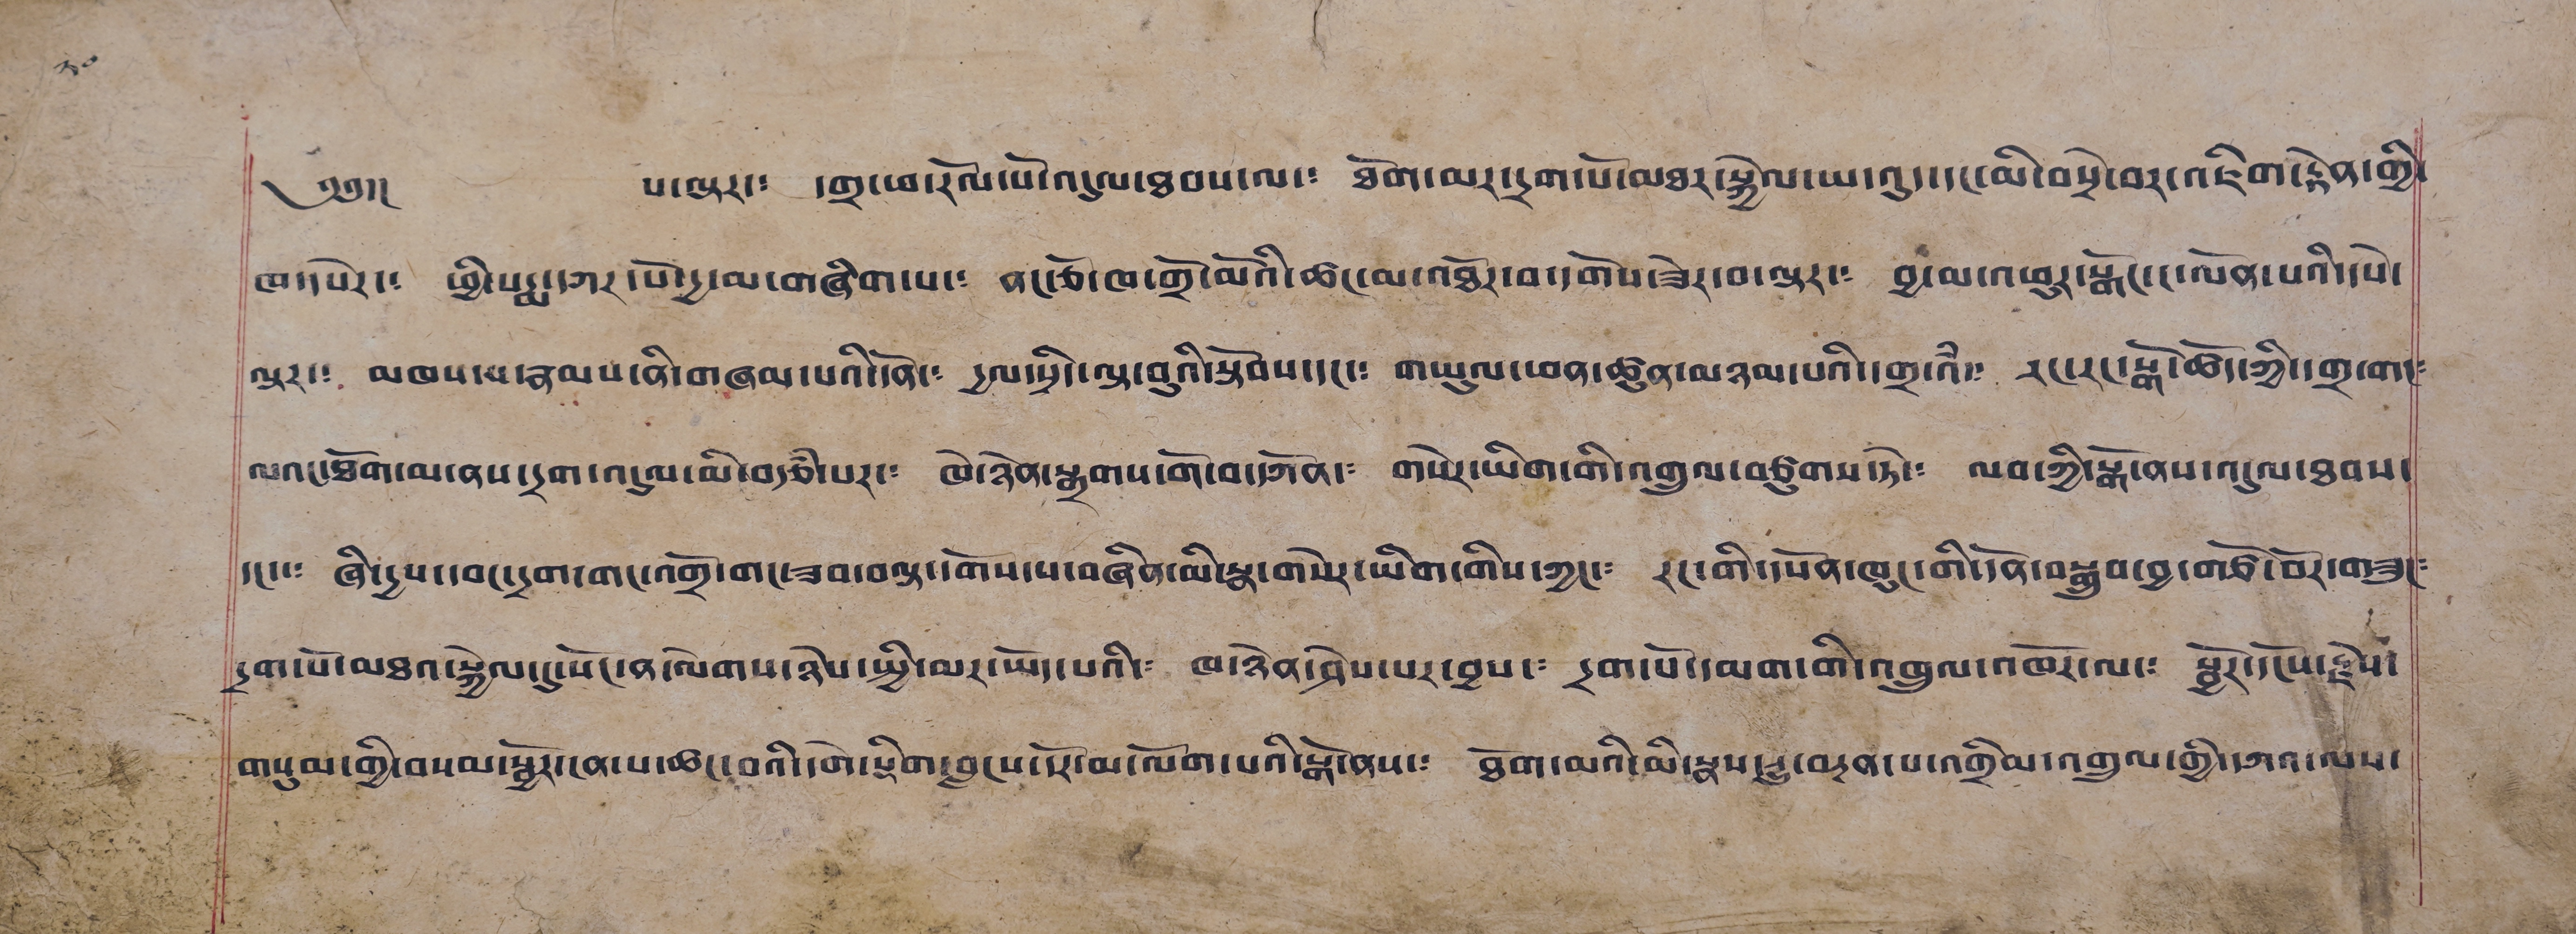༢༠
༄༅།། པ་ལྟར་༴ དགྲ་ཕ་རོལ་པོ་འདུལ་ཐབས་ལ་༴ ཐོག་མར་དྲག་པོ་མཐར་སྐྱེལ་ཡ་འུད་དང་མི་བསྲེ་བར་འཇིག་རྟེན་གྱི་
ཁ་དཔེར་༴ ཕྱི་པདྨ་དཀར་པོ་དྱ་མ་གཞིག་པ་༴ ནང་ཅོ་ཁ་གྲོ་མོའི་ཚང་མ་འཐོར་བ་དགོས་ཟེར་བ་ལྟར་༴ བྱ་མ་འཕུར་སྒོང་ང་ལོན་པའི་དཔེ་
ལྟར་༴ མཁས་པ་རྣམས་ནི་གཞལ་པའི་དོན་༴ དྱལ་སྲིད་ལྟ་བུའི་སྟོབས་དང་༴ གཡུལ་ཕན་ཚུན་མཉམ་པའི་དགྲ་འཾ་༴ རང་རང་སྒོ་ཚོད་ཀྱི་དགྲ་གང༴
ལའང་ཐོག་མ་ནས་དྲག་འདུལ་མི་བརྩི་པར་༴ ཁེ་ཉེན་སྒྲགས་གོ་བ་དཀོན་། གསེར་ཡིག་གི་འགྲུལ་བཙུགས་ཏེ་༴ ལབ་ཀྱི་སྒོ་ནས་འདུལ་ཐབས་
དང་༴ ཞི་དྱས་དབང་དྲག་གང་འགྲོ་གང་ཟབ་བལྟ་དགོས་པ་བཞིན་མི་སྣ་གསེར་ཡིག་གིས་ཀྱང་༴ རང་གི་དཔོན་ཁུང་གི་དོན་བསྒྲུབ་བྱ་གཙོ་བོར་གཟུང་༴
དྲག་པོ་མཐའ་སྐྱེལ་དུ་སོང་ན་ལེགས་ཉེས་སྤྱི་མར་ཡོད་པའི་༴ ཁ་ཉེན་ཤེས་པར་བྱས་༴ དྲག་པོ་དམག་གི་འཁྲུལ་འཁོར་ལ་༴ སྦྱོར་དངོས་རྗེས་
གསུམ་གྱི་བསམ་སྦྱོར་ངན་པ་ཚང་བའི་དགེ་སྡིག་བླངས་སོ་མ་ལོག་པའི་སྒོ་ནས་༴ ཐོག་མའི་མི་སྣས་རྒྱུ་བརྔན་པ་འགྲིམ་འགྲུལ་གྱི་དཀའ་ལས་
